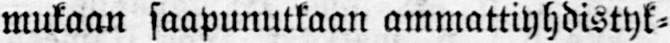mukaan saapunutkaan ammattiyhdistyk-
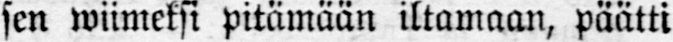sen wiimeksi pitämään iltamaan, päätti
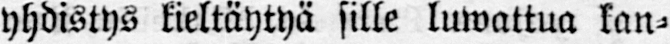yhdistys kieltäytyä sille luwattua kan-
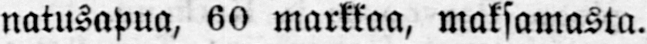natusapua, 60 markkaa, maksamasta.
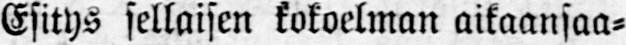Esitys sellaisen kokoelman aikaansaa-
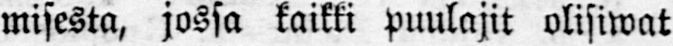misesta, jossa kaikki puulajit olisiwat
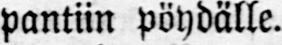pantiin pöydälle.
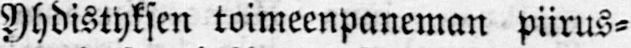Yhdistyksen toimeenpaneman piirus-
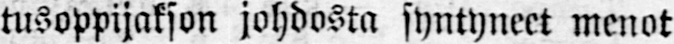tusoppijakson johdosta syntyneet menot
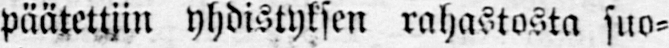päätettiin yhdistyksen rahastosta suo-
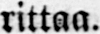rittaa.
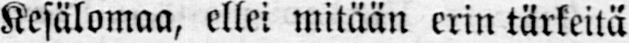Kesälomaa, ellei mitään erin tärkeitä
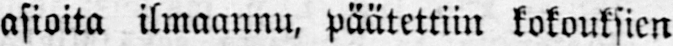asioita ilmaannu, päätettiin kokouksien
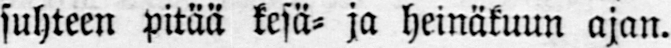suhteen pitää kesä- ja heinäkuun ajan.
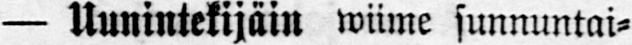— Uunintekijäin wiime sunnuntai-
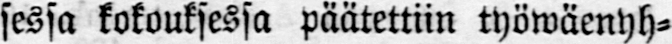sessa kokouksessa päätettiin työwäenyh-
